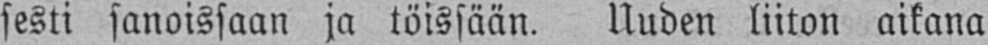sesti sanoissaan ja töissään. Uuden liiton aikana
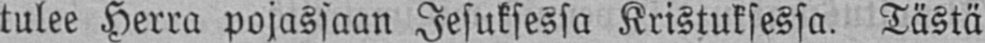tulee Herra pojassaan Jesuksessa Kristuksessa. Tästä
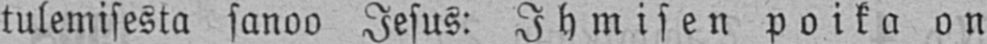tulemisesta sanoo Jesus: Ihmisen poika on
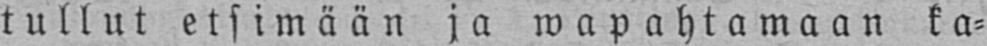tullut etsimään ja wapahtamaan ka-
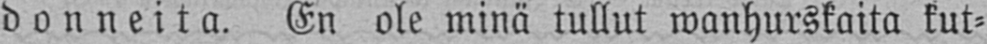donneita. En ole minä tullut wanhurskaita kut-
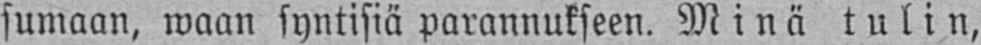sumaan, waan syntisiä parannukseen. Minä tulin,
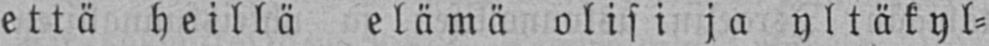että heillä elämä olisi ja yltäkyl-
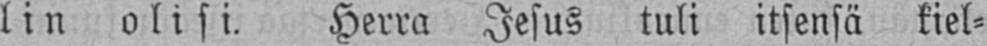lin olisi. Herra Jesus tuli itsensä kiel-
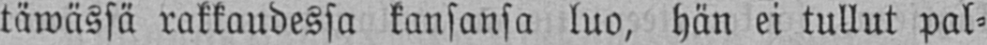täwässä rakkaudessa kansansa luo, hän ei tullut pal-
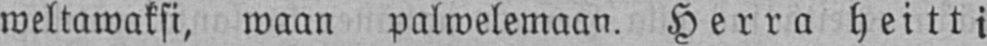weltawaksi, waan palwelemaan. Herra heitti
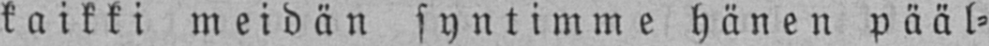kaikki meidän syntimme hänen pääl-
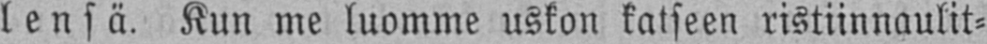lensä. Kun me luomme uskon katseen ristiinnaulit-
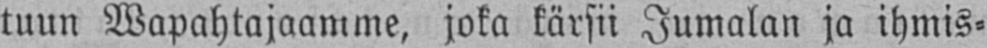tuun Wapahtajaamme, joka kärsii Jumalan ja ihmis-
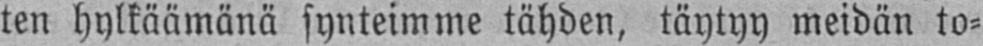ten hylkäämänä synteimme tähden, täytyy meidän to-
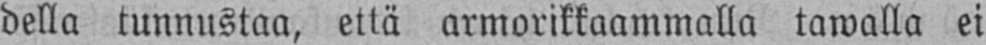della tunnustaa, että armorikkaammalla tawalla ei
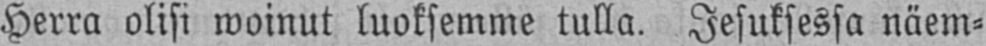Herra olisi woinut luoksemme tulla. Jesuksessa näem-
